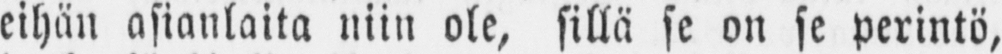eihän asianlaita niin ole, sillä se on se perintö,
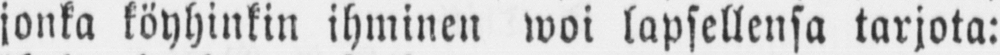jonka köyhinkin ihminen woi lapsellensa tarjota:
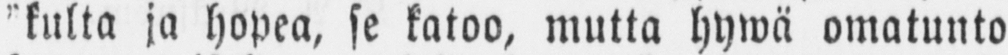”kulta ja hopea, se katoo, mutta hywä omatunto
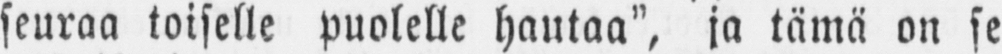seuraa toiselle puolelle hautaa”, ja tämä on se
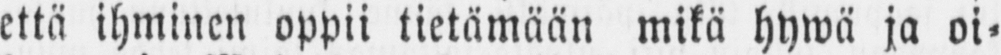että ihminen oppii tietämään mikä hywä ja oi-
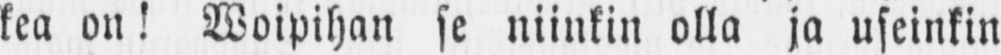kea on! Woipihan se niinkin olla ja useinkin
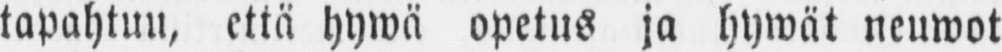tapahtuu, että hywä opetus ja hywät neuwot
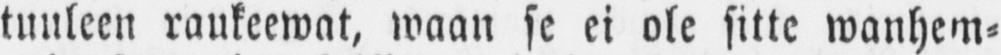tuuleen raukeewat, waan se ei ole sitte wanhem-
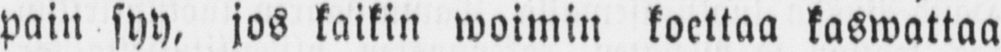pain syy, jos kaikin woimin koettaa kaswattaa
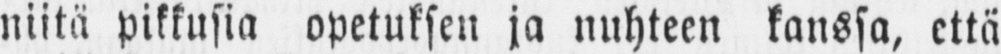niitä pikkusia opetuksen ja nuhteen kanssa, että
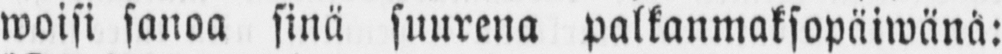woisi sanoa sinä suurena palkanmaksopäiwänä:
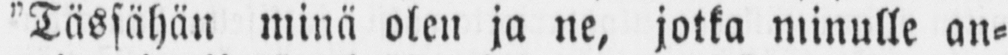”Tässähän minä olen ja ne, jotka minulle an-
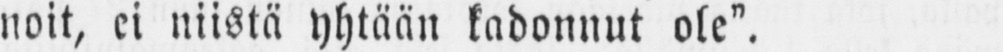noit, ei niistä yhtään kadonnut ole”.
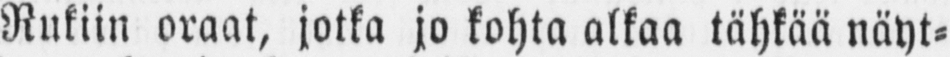Rukiin oraat, jotka jo kohta alkaa tähkää näyt-
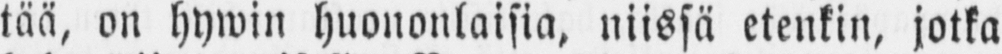tää, on hywin huononlaisia, niissä etenkin, jotka
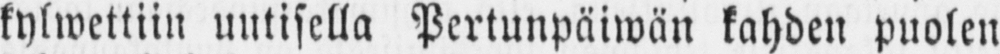kylwettiin uutisella Pertunpäiwän kahden puolen
